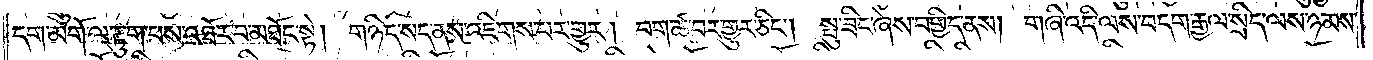དག་མགོ་ལ་རྟུག་པས་འཐོར་བ་མཐོང་སྟེ། གཉིད་སད་ནས་འཇིགས་པར་གྱུར། བག་ཚ་བར་གྱུར་ཅིང༌། སྤུ་ཟིང་ཞེས་བགྱིད་ནས། གཞི་འདི་ལས་བདག་རྒྱལ་སྲིད་ལས་ཉམས་
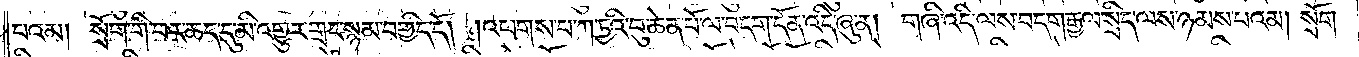པའམ། སྲོག་གི་བར་ཆད་དུ་མི་འགྱུར་གྲང་སྙམ་བགྱིད་དོ། །འཕགས་པ་ཀ་ཏྱའི་བུ་ཆེན་པོ་ལ་བདག་དོན་འདི་ཞུ་ན། གཞི་འདི་ལས་བདག་རྒྱལ་སྲིད་ལས་ཉམས་པའམ། སྲོག་
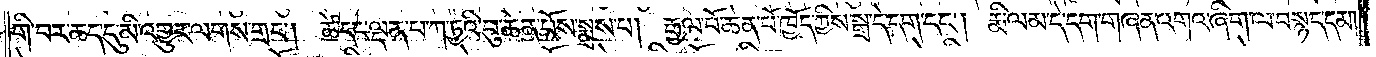གི་བར་ཆད་དུ་མི་འགྱུར་ལགས་གྲང༌། ཚེ་དང་ལྡན་པ་ཀ་ཏྱའི་བུ་ཆེན་པོས་སྨྲས་པ། རྒྱལ་པོ་ཆེན་པོ་ཁྱོད་ཀྱིས་སྒྲ་དེ་དག་དང༌། རྨི་ལམ་དེ་དག་གཞན་འགའ་ཞིག་ལ་བསྙད་དམ།
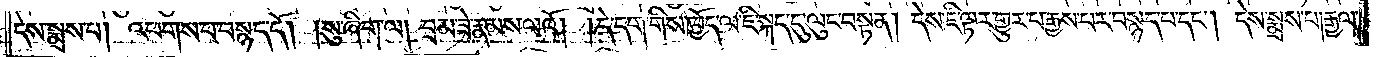དེས་སྨྲས་པ། འཕགས་པ་བསྙད་དོ། །སུ་ཞིག་ལ། བྲམ་ཟེ་རྣམས་ལའོ། །དེ་དག་གིས་ཁྱོད་ལ་ཇི་སྐད་དུ་ལུང་བསྟན། དེས་ཇི་ལྟར་གྱུར་པ་རྒྱས་པར་བསྙད་པ་དང༌། དེས་སྨྲས་པ། རྒྱལ་
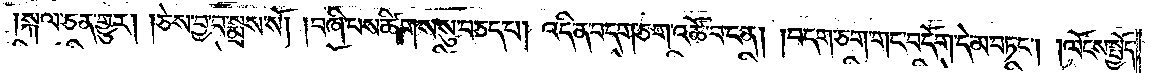སྐལ་ཅན་གྱུར། །ཅེས་བྱ་བ་སྨྲས་སོ། །བཞི་པས་ཚིགས་སུ་བཅད་པ། འདི་ན་བདག་ཅག་འཚོ་བ་ངན། །བདག་ཅག་གང་བདོག་དེ་མ་བཏང༌། །ལོངས་སྤྱོད་
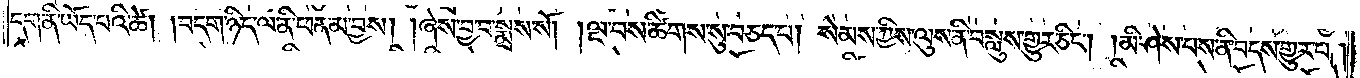དག་ནི་ཡོད་པའི་ཚེ། །བདག་ཉིད་ལ་ནི་ཕན་མ་བྱས། །ཞེས་བྱ་བ་སྨྲས་སོ། །ལྔ་བས་ཚིགས་སུ་བཅད་པ། སེམས་ཀྱིས་ལུས་ནི་བསླུས་གྱུར་ཅིང༌། །མི་ཤེས་པས་ནི་བདས་གྱུར་པ།
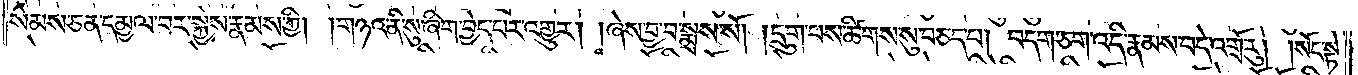སེམས་ཅན་དམྱལ་བར་སྐྱེས་རྣམས་ཀྱི། །གཉའ་ནི་སུ་ཞིག་བྱེད་པར་འགྱུར། །ཞེས་བྱ་བ་སྨྲས་སོ། །དྲུག་པས་ཚིགས་སུ་བཅད་པ། བདག་ཅག་འདི་རྣམས་བདེ་འགྲོ་རུ། །སོང་སྟེ་
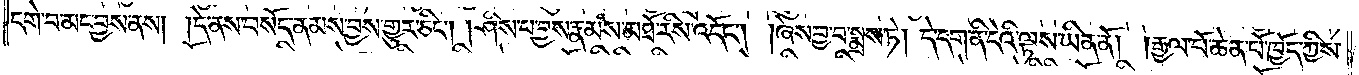དགེ་བ་མང་བྱས་ནས། །དེ་ནས་བསོད་ནམས་བྱས་གྱུར་ཅིང༌། །ཤིས་པ་བྱས་རྣམས་མཐོ་རིས་འདོང༌། །ཞེས་བྱ་བ་སྨྲས་ཏེ། དེ་དག་ནི་དེའི་ལྟས་ཡིན་ནོ། །རྒྱལ་པོ་ཆེན་པོ་ཁྱོད་ཀྱིས་
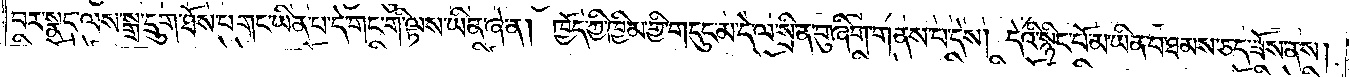བར་སྣང་ལས་སྒྲ་དྲུག་ཐོས་པ་གང་ཡིན་པ་དེ་གང་གི་ལྟས་ཡིན་ཞེ་ན། ཁྱོད་ཀྱི་ཁྱིམ་གྱི་གདུང་མ་དེ་ལ་སྲིན་བུ་ཞིག་གནས་པ་དེས། དེའི་སྙིང་པོ་མ་ཡིན་པ་ཐམས་ཅད་ཟོས་ནས།
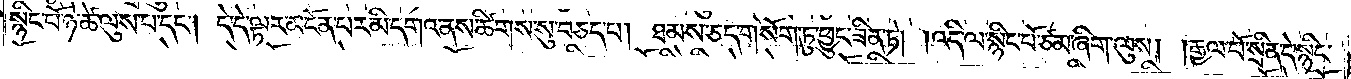སྙིང་པོ་ཉེ་ཚེ་ལུས་པ་དང༌། དེ་དེ་ལྟར་མངོན་པར་མི་དགའ་ནས་ཚིགས་སུ་བཅད་པ། ཐམས་ཅད་གསོག་ཏུ་ཕྱུང་ཟིན་ཏེ། །འདི་ལ་སྙིང་པོ་ཙམ་ཞིག་ལུས། །རྒྱལ་པོ་སྲིན་དེ་སྙིང་
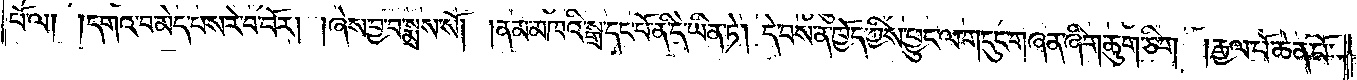པོ་ལ། །དགའ་བ་མེད་པས་རེ་བ་བོར། །ཞེས་བྱ་བ་སྨྲས་སོ། །ནམ་མཁའི་སྒྲ་དང་པོ་ནི་དེ་ཡིན་ཏེ། དེ་བས་ན་ཁྱོད་ཀྱིས་ཕྱུང་ལ་གདུང་གཞན་ཞིག་ཆུག་ཅིག །རྒྱལ་པོ་ཆེན་པོ་
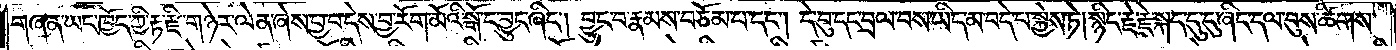གཞན་ཡང་ཁྱོད་ཀྱི་རྟ་རྫི་གཉེར་ལེན་ཞེས་བྱ་བ་དེས་བྱ་རོག་མོའི་སྒོ་ང་བྱུང་ཞིང༌། བྱུང་བ་རྣམས་བཅོམ་པ་དང༌། དེ་བུ་དང་བྲལ་བས་ཡིད་མ་བདེ་བ་སྐྱེས་ཏེ། སྙིང་རྗེ་རྗེ་སྐད་དུ་ངུ་ཞིང་དལ་བུས་ཚིགས་
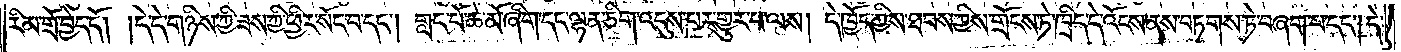རིམ་གྲོ་བྱེད་དོ། །དེ་དེ་གཉིས་ཀྱི་ཟས་ཀྱི་ཕྱིར་སོང་བ་དང༌། གླང་པོ་ཆེ་མོ་ཞིག་དང་ལྷན་ཅིག་འདུས་པར་གྱུར་པ་ལས། དེ་ཁྱོད་ཀྱིས་ཐབས་ཀྱིས་གྲོངས་ཏེ་ཁྲིད་དེ་འོངས་ནས་བཏགས་ཏེ་བཞག་པ་དང༌། དེ་
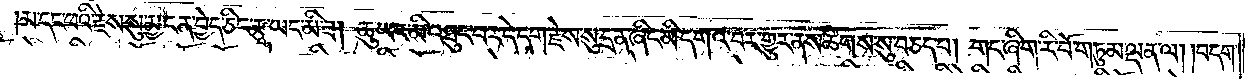མ་དང་ཕའི་རྗེས་སུ་མྱ་ངན་བྱེད་ཅིང་རྩྭ་ཡང་མི་ཟ། ཆུ་ཡང་མི་འཐུང་བར་དེ་དག་རྗེས་སུ་དྲན་ཞིང་མི་དགའ་བར་གྱུར་ནས་ཚིགས་སུ་བཅད་པ། གང་ཞིག་རི་བོ་གཏུམ་ལྡན་ལ། །བདག་
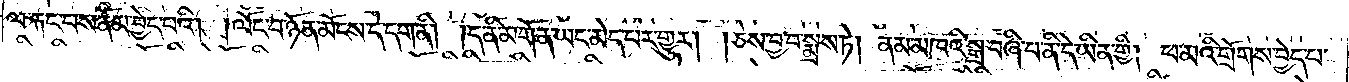ལ་རྐང་པས་ནོམ་བྱེད་པའི། །ལོང་བ་ཉོན་མོངས་དེ་དག་ནི། །ད་ནི་མགོན་ཡང་མེད་པར་གྱུར། །ཅེས་བྱ་བ་སྨྲས་ཏེ། ནམ་མཁའི་སྒྲ་བཞི་པ་ནི་དེ་ཡིན་གྱི། ཕ་མའི་གྲོགས་བྱེད་པ་
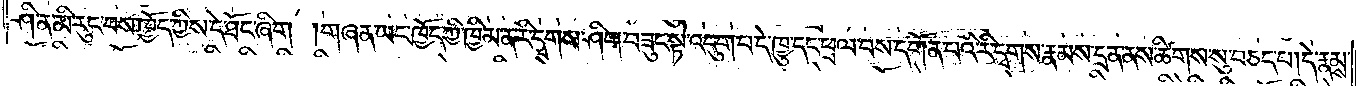ཤིན་མི་རུང་བས་ཁྱོད་ཀྱིས་དེ་ཐོང་ཞིག །གཞན་ཡང་ཁྱོད་ཀྱི་ཁྱིམ་ན་རི་དྭགས་ཤིག་བཟུང་སྟེ་འདུག་པ་དེ་ཁྱུ་དང་ཕྲལ་བས་དགོན་པའི་རི་དྭགས་རྣམས་དྲན་ནས་ཚིགས་སུ་བཅད་པ། དེ་རྣམས་
